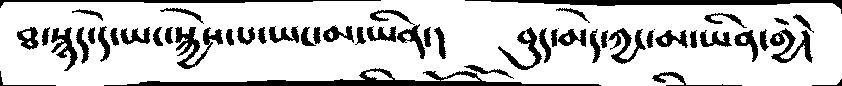ཐ་སྙད་དེ་ཡང་སྐྱེས་པ་ཡང་མ་ཡིན་།     བུད་མེད་ཀྱང་མ་ཡིན་གྱི།
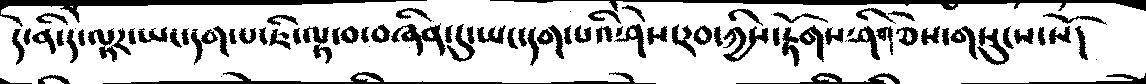དེ་ནི་ད་ལྟར་ཡང་དག་པ་ཇི་ལྟ་བ་བཞིན་དུ་ཡང་དག་པའི་ཤེས་རབ་ཀྱིས་རྟོགས་ཤིགཅེས་གསུངས་སོ།
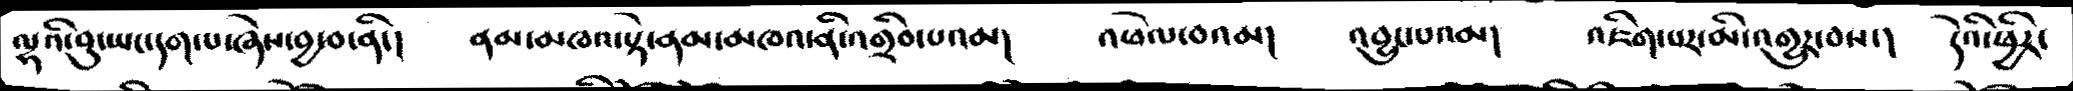ལྷའི་བུ་ཡང་དག་པ་ཞེས་བྱ་བ་ནི་།    ནམ་མཁའ་སྟེ་ནམ་མཁའ་ནི་འགྲིབ་པའམ།    འཕེལ་བའམ།   འབྱུང་པའམ།    འཇིག་པར་མི་འགྱུར་བས།   དེའི་ཕྱིར་
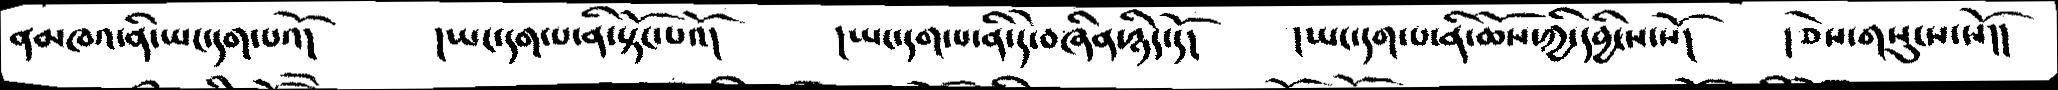ནམཁའ་ནི་ཡང་དག་པའོ།    །ཡང་དག་པ་ནི་སྟོང་པའོ།      །ཡང་དག་པ་ནི་དེ་བཞིན་ཉིད་དོ།    །ཡང་དག་པ་ནི་ཆོས་ཀྱི་དབྱིངས་སོ།     །ཅེས་གསུངས་སོ།།
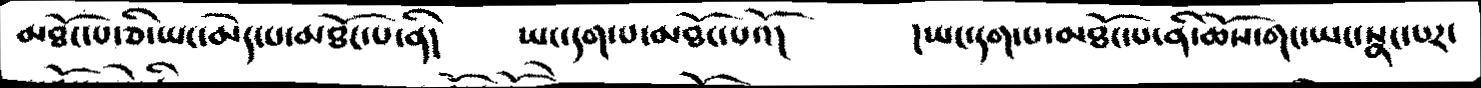མཐོང་པ་ཅི་ཡང་མེད་པ་མཐོང་པ་ནི།     ཡང་དག་པ་མཐོང་པའོ།     །ཡང་དག་པ་མཐོང་པ་ནི་ཆོས་གང་ཡང་སྣང་པར་
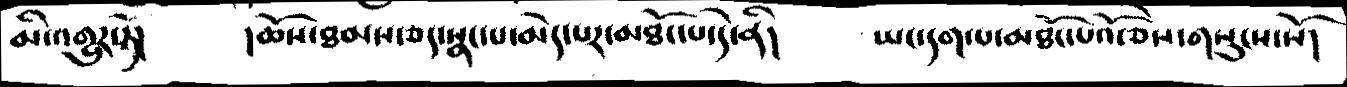མི་འགྱུར་ཏེ།      །ཆོས་ཐམས་ཅད་སྣང་པ་མེད་པར་མཐོང་པ་དེ་ནི།      ཡང་དག་པ་མཐོང་པའོ་ཅེས་གསུངས་སོ།
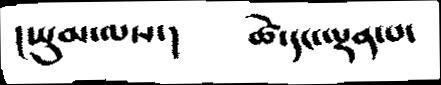།ཡུམ་ལས།      ཚེ་དང་ལྡན་པ་
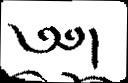༄༅།
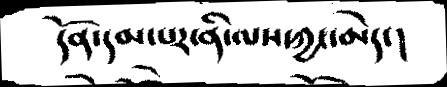དོན་དམ་པར་ནི་ལས་ཀྱང་མེད་།
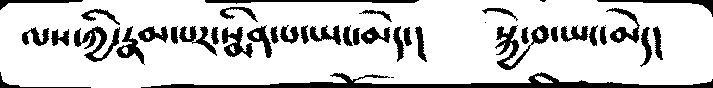ལས་ཀྱི་རྣམ་པར་སྨིན་པ་ཡང་མེད་།       སྐྱེ་བ་ཡང་མེད།
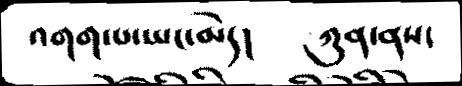འགག་པ་ཡང་མེད།        ཀུན་ནས་
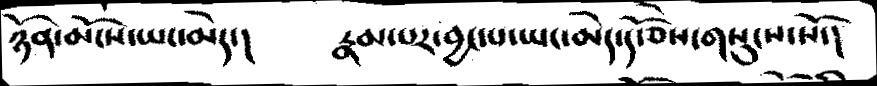ཉོན་མོངས་ཡང་མེད་།      རྣམ་པར་བྱང་པ་ཡང་མེད་དོ་ཅེས་གསུངས་སོ་།
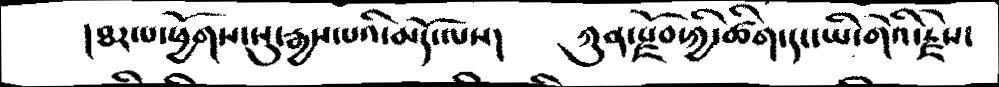།ཐར་པ་ཕྱོགས་སུ་རྒྱས་པའི་མདོ་ལས།       ཀུན་རྫོབ་ཀྱི་ཚིག་དང་ཡི་གེའི་རྗེས་
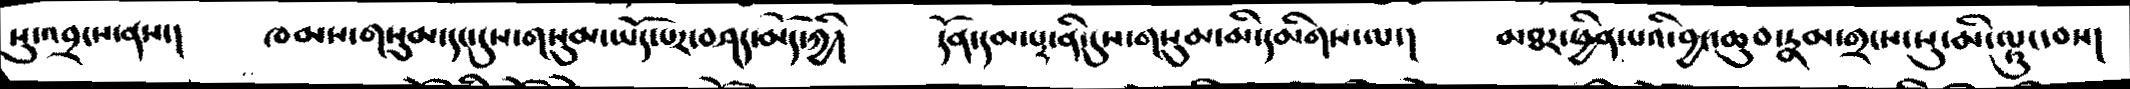སུ་འབྲངས་ནས་།   ཁམས་གསུམ་དང་དུས་གསུམ་ཡོད་པར་བཤད་མོད་ཀྱི།   དོན་དམ་པར་ནི་དུས་གསུམ་མི་དམིགས་ལ་།   མཐར་ཕྱིན་པའི་བྱང་ཆུབ་རྣམ་གྲངས་སུ་མི་ལྟུང་བས།
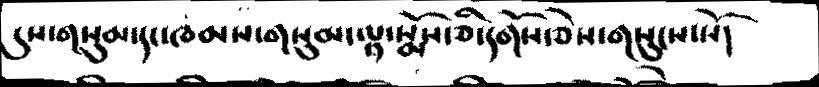དུས་གསུམ་དང་ཁམས་གསུམ་ལྟ་སྨོས་ཅི་དགོས་ཅེས་གསུངས་སོ།
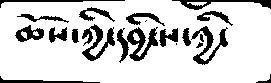ཆོས་ཀྱི་དབྱིངས་ཀྱི་
